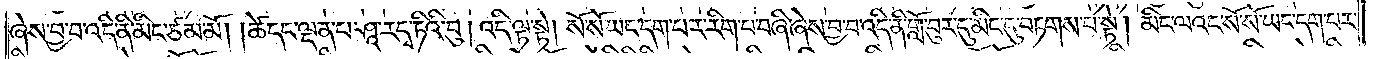ཞེས་བྱ་བ་འདི་ནི་མིང་ཙམ་མོ། །ཚེ་དང་ལྡན་པ་ཤཱ་ར་དྭ་ཏིའི་བུ། འདི་ལྟ་སྟེ། སོ་སོ་ཡང་དག་པར་རིག་པ་བཞི་ཞེས་བྱ་བ་འདི་ནི་གློ་བུར་དུ་མིང་དུ་བཏགས་པ་སྟེ། མིང་ལའང་སོ་སོ་ཡང་དག་པར་
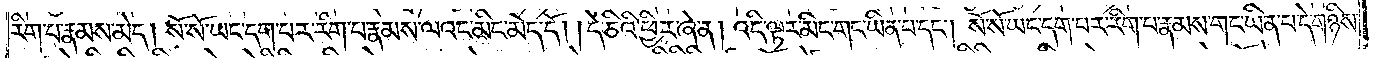རིག་པ་རྣམས་མེད། སོ་སོ་ཡང་དག་པར་རིག་པ་རྣམས་ལའང་མིང་མེད་དོ། །དེ་ཅིའི་ཕྱིར་ཞེ་ན། འདི་ལྟར་མིང་གང་ཡིན་པ་དང༌། སོ་སོ་ཡང་དག་པར་རིག་པ་རྣམས་གང་ཡིན་པ་དེ་གཉིས་
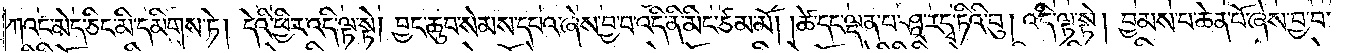ཀའང་མེད་ཅིང་མི་དམིགས་ཏེ། དེའི་ཕྱིར་འདི་ལྟ་སྟེ། བྱང་ཆུབ་སེམས་དཔའ་ཞེས་བྱ་བ་འདི་ནི་མིང་ཙམ་མོ། །ཚེ་དང་ལྡན་པ་ཤཱ་ར་དྭ་ཏིའི་བུ། འདི་ལྟ་སྟེ། བྱམས་པ་ཆེན་པོ་ཞེས་བྱ་བ་
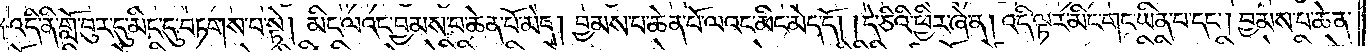འདི་ནི་གློ་བུར་དུ་མིང་དུ་བཏགས་པ་སྟེ། མིང་ལའང་བྱམས་པ་ཆེན་པོ་མེད། བྱམས་པ་ཆེན་པོ་ལའང་མིང་མེད་དོ། །དེ་ཅིའི་ཕྱིར་ཞེ་ན། འདི་ལྟར་མིང་གང་ཡིན་པ་དང༌། བྱམས་པ་ཆེན་
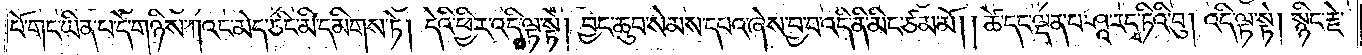པོ་གང་ཡིན་པ་དེ་གཉིས་ཀའང་མེད་ཅིང་མི་དམིགས་ཏེ། དེའི་ཕྱིར་འདི་ལྟ་སྟེ། བྱང་ཆུབ་སེམས་དཔའ་ཞེས་བྱ་བ་འདི་ནི་མིང་ཙམ་མོ། །ཚེ་དང་ལྡན་པ་ཤཱ་ར་དྭ་ཏིའི་བུ། འདི་ལྟ་སྟེ། སྙིང་རྗེ་
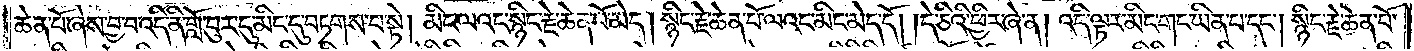ཆེན་པོ་ཞེས་བྱ་བ་འདི་ནི་གློ་བུར་དུ་མིང་དུ་བཏགས་པ་སྟེ། མིང་ལའང་སྙིང་རྗེ་ཆེན་པོ་མེད། སྙིང་རྗེ་ཆེན་པོ་ལའང་མིང་མེད་དོ། །དེ་ཅིའི་ཕྱིར་ཞེ་ན། འདི་ལྟར་མིང་གང་ཡིན་པ་དང༌། སྙིང་རྗེ་ཆེན་པོ་
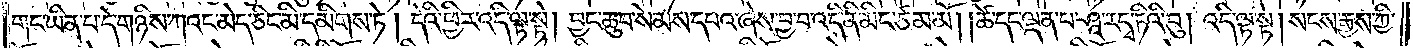གང་ཡིན་པ་དེ་གཉིས་ཀའང་མེད་ཅིང་མི་དམིགས་ཏེ། དེའི་ཕྱིར་འདི་ལྟ་སྟེ། བྱང་ཆུབ་སེམས་དཔའ་ཞེས་བྱ་བ་འདི་ནི་མིང་ཙམ་མོ། །ཚེ་དང་ལྡན་པ་ཤཱ་ར་དྭ་ཏིའི་བུ། འདི་ལྟ་སྟེ། སངས་རྒྱས་ཀྱི་
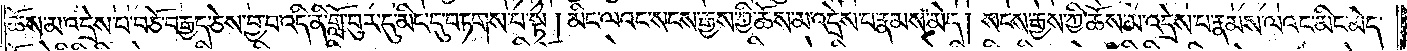ཆོས་མ་འདྲེས་པ་བཅོ་བརྒྱད་ཅེས་བྱ་བ་འདི་ནི་གློ་བུར་དུ་མིང་དུ་བཏགས་པ་སྟེ། མིང་ལའང་སངས་རྒྱས་ཀྱི་ཆོས་མ་འདྲེས་པ་རྣམས་མེད། སངས་རྒྱས་ཀྱི་ཆོས་མ་འདྲེས་པ་རྣམས་ལའང་མིང་མེད་
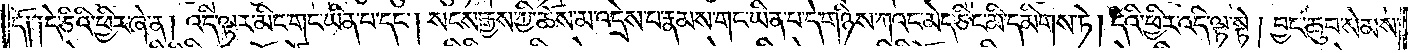དོ། །དེ་ཅིའི་ཕྱིར་ཞེ་ན། འདི་ལྟར་མིང་གང་ཡིན་པ་དང༌། སངས་རྒྱས་ཀྱི་ཆོས་མ་འདྲེས་པ་རྣམས་གང་ཡིན་པ་དེ་གཉིས་ཀའང་མེད་ཅིང་མི་དམིགས་ཏེ། དེའི་ཕྱིར་འདི་ལྟ་སྟེ། བྱང་ཆུབ་སེམས་
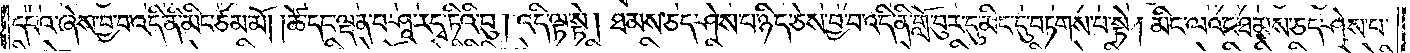དཔའ་ཞེས་བྱ་བ་འདི་ནི་མིང་ཙམ་མོ། ཚེ་དང་ལྡན་པ་ཤཱ་ར་དྭ་ཏིའི་བུ། འདི་ལྟ་སྟེ། ཐམས་ཅད་ཤེས་པ་ཉིད་ཅེས་བྱ་བ་འདི་ནི་གློ་བུར་དུ་མིང་དུ་བཏགས་པ་སྟེ། མིང་ལའང་ཐམས་ཅད་ཤེས་པ་
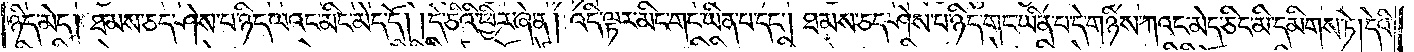ཉིད་མེད། ཐམས་ཅད་ཤེས་པ་ཉིད་ལའང་མིང་མེད་དོ། །དེ་ཅིའི་ཕྱིར་ཞེ་ན། འདི་ལྟར་མིང་གང་ཡིན་པ་དང༌། ཐམས་ཅད་ཤེས་པ་ཉིད་གང་ཡིན་པ་དེ་གཉིས་ཀའང་མེད་ཅིང་མི་དམིགས་ཏེ། དེའི་
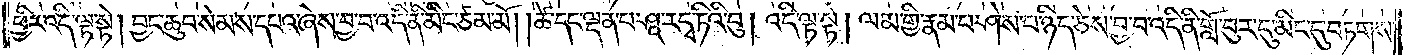ཕྱིར་འདི་ལྟ་སྟེ། བྱང་ཆུབ་སེམས་དཔའ་ཞེས་བྱ་བ་འདི་ནི་མིང་ཙམ་མོ། །ཚེ་དང་ལྡན་པ་ཤཱ་ར་དྭ་ཏིའི་བུ། འདི་ལྟ་སྟེ། ལམ་གྱི་རྣམ་པ་ཤེས་པ་ཉིད་ཅེས་བྱ་བ་འདི་ནི་གློ་བུར་དུ་མིང་དུ་བཏགས་
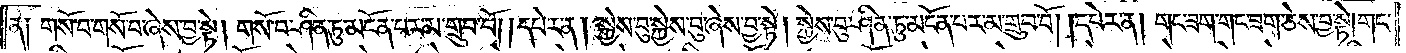ན༑ གསོ་བ་གསོ་བ་ཞེས་བྱ་སྟེ། གསོ་བ་ཤིན་ཏུ་མངོན་པར་མ་གྲུབ་བོ། །དཔེར་ན་སྐྱེས་བུ་སྐྱེས་བུ་ཞེས་བྱ་སྟེ། སྐྱེས་བུ་ཤིན་ཏུ་མངོན་པར་མ་གྲུབ་བོ། །དཔེར་ན། གང་ཟག་གང་ཟག་ཅེས་བྱ་སྟེ། གང་
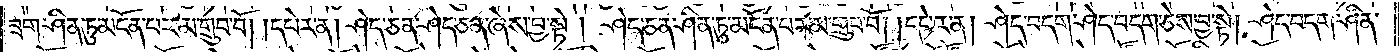ཟག་ཤིན་ཏུ་མངོན་པར་མ་གྲུབ་བོ། །དཔེར་ན། ཤེད་ཅན་ཤེད་ཅན་ཞེས་བྱ་སྟེ། ཤེད་ཅན་ཤིན་ཏུ་མངོན་པར་མ་གྲུབ་བོ། །དཔེར་ན་ཤེད་བདག་ཤེད་བདག་ཅེས་བྱ་སྟེ། ཤེད་བདག་ཤིན་
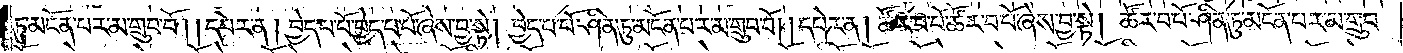ཏུ་མངོན་པར་མ་གྲུབ་བོ། །དཔེར་ན། བྱེད་པ་པོ་བྱེད་པ་པོ་ཞེས་བྱ་སྟེ། བྱེད་པ་པོ་ཤིན་ཏུ་མངོན་པར་མ་གྲུབ་བོ། །དཔེར་ན། ཚོར་བ་པོ་ཚོར་བ་པོ་ཞེས་བྱ་སྟེ། ཚོར་བ་པོ་ཤིན་ཏུ་མངོན་པར་མ་གྲུབ་
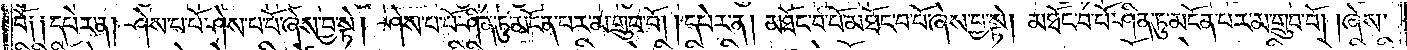བོ༑ ༑དཔེར་ན། ཤེས་པ་པོ་ཤེས་པ་པོ་ཞེས་བྱ་སྟེ། ཤེས་པ་པོ་ཤིན་ཏུ་མངོན་པར་མ་གྲུབ་བོ། །དཔེར་ན། མཐོང་བ་པོ་མཐོང་བ་པོ་ཞེས་བྱ་སྟེ། མཐོང་བ་པོ་ཤིན་ཏུ་མངོན་པར་མ་གྲུབ་བོ། །ཞེས་
